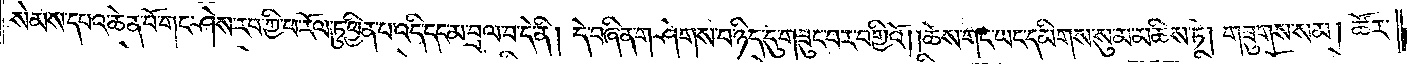སེམས་དཔའ་ཆེན་པོ་གང་ཤེས་རབ་ཀྱི་ཕ་རོལ་ཏུ་ཕྱིན་པ་འདི་དང་མ་བྲལ་བ་དེ་ནི། དེ་བཞིན་གཤེགས་པ་ཉིད་དུ་གཟུང་བར་བགྱིའོ། །ཆོས་གང་ཡང་དམིགས་སུ་མ་མཆིས་ཏེ། གཟུགས་སམ། ཚོར་
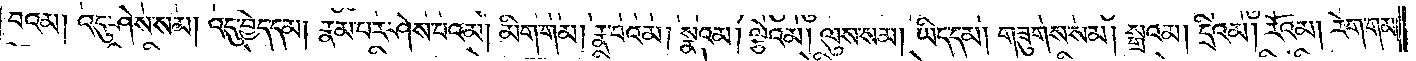བའམ། འདུ་ཤེས་སམ། འདུ་བྱེད་དམ། རྣམ་པར་ཤེས་པའམ། མིག་གམ། རྣ་བའམ། སྣའམ། ལྕེ་འམ། ལུས་སམ། ཡིད་དམ། གཟུགས་སམ། སྒྲའམ། དྲི་འམ། རོ་འམ། རེག་གམ།
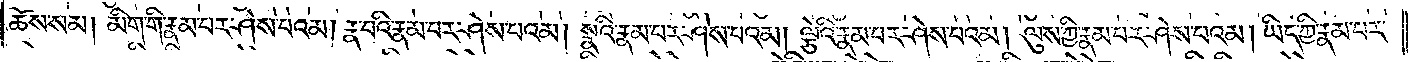ཆོས་སམ། མིག་གི་རྣམ་པར་ཤེས་པའམ། རྣ་བའི་རྣམ་པར་ཤེས་པའམ། སྣའི་རྣམ་པར་ཤེས་པའམ། ལྕེའི་རྣམ་པར་ཤེས་པའམ། ལུས་ཀྱི་རྣམ་པར་ཤེས་པའམ། ཡིད་ཀྱི་རྣམ་པར་
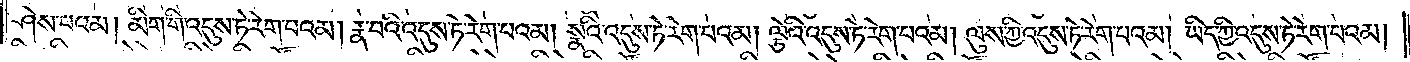ཤེས་པའམ། མིག་གི་འདུས་ཏེ་རེག་པའམ། རྣ་བའི་འདུས་ཏེ་རེག་པའམ། སྣའི་འདུས་ཏེ་རེག་པའམ། ལྕེའི་འདུས་ཏེ་རེག་པའམ། ལུས་ཀྱི་འདུས་ཏེ་རེག་པའམ། ཡིད་ཀྱི་འདུས་ཏེ་རེག་པའམ།
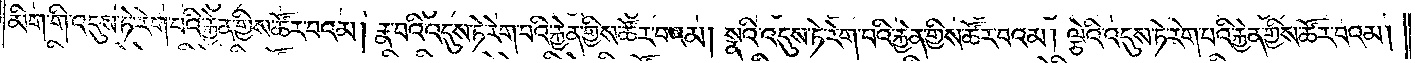མིག་གི་འདུས་ཏེ་རེག་པའི་རྐྱེན་གྱིས་ཚོར་བའམ། རྣ་བའི་འདུས་ཏེ་རེག་པའི་རྐྱེན་གྱིས་ཚོར་བའམ། སྣའི་འདུས་ཏེ་རེག་པའི་རྐྱེན་གྱིས་ཚོར་བའམ། ལྕེའི་འདུས་ཏེ་རེག་པའི་རྐྱེན་གྱིས་ཚོར་བའམ།
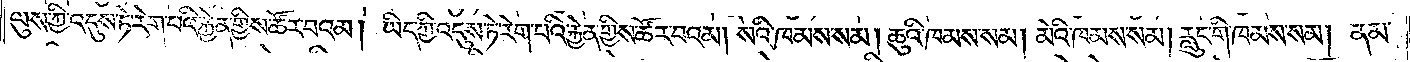ལུས་ཀྱི་འདུས་ཏེ་རེག་པའི་རྐྱེན་གྱིས་ཚོར་བའམ། ཡིད་ཀྱི་འདུས་ཏེ་རེག་པའི་རྐྱེན་གྱིས་ཚོར་བའམ། སའི་ཁམས་སམ། ཆུའི་ཁམས་སམ། མེའི་ཁམས་སམ། རླུང་གི་ཁམས་སམ། ནམ་
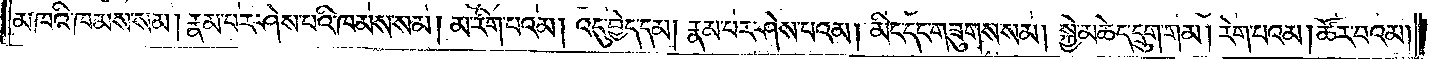མཁའི་ཁམས་སམ། རྣམ་པར་ཤེས་པའི་ཁམས་སམ། མ་རིག་པའམ། འདུ་བྱེད་དམ། རྣམ་པར་ཤེས་པའམ། མིང་དང་གཟུགས་སམ། སྐྱེ་མཆེད་དྲུག་གམ། རེག་པའམ། ཚོར་བའམ།
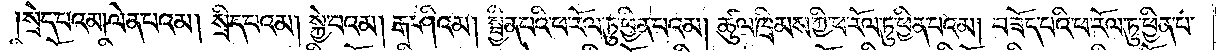སྲེད་པའམ། ལེན་པའམ། སྲིད་པའམ། སྐྱེ་བའམ། རྒ་ཤི་འམ། སྦྱིན་པའི་ཕ་རོལ་ཏུ་ཕྱིན་པའམ། ཚུལ་ཁྲིམས་ཀྱི་ཕ་རོལ་ཏུ་ཕྱིན་པའམ། བཟོད་པའི་ཕ་རོལ་ཏུ་ཕྱིན་པ་
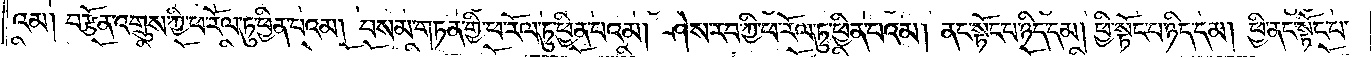འམ། བརྩོན་འགྲུས་ཀྱི་ཕ་རོལ་ཏུ་ཕྱིན་པའམ། བསམ་གཏན་གྱི་ཕ་རོལ་ཏུ་ཕྱིན་པའམ། ཤེས་རབ་ཀྱི་ཕ་རོལ་ཏུ་ཕྱིན་པའམ། ནང་སྟོང་པ་ཉིད་དམ། ཕྱི་སྟོང་པ་ཉིད་དམ། ཕྱི་ནང་སྟོང་པ་
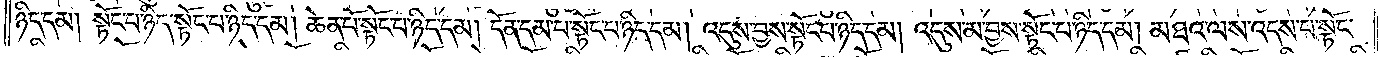ཉིད་དམ། སྟོང་པ་ཉིད་སྟོང་པ་ཉིད་དམ། ཆེན་པོ་སྟོང་པ་ཉིད་དམ། དོན་དམ་པ་སྟོང་པ་ཉིད་དམ། འདུས་བྱས་སྟོང་པ་ཉིད་དམ། འདུས་མ་བྱས་སྟོང་པ་ཉིད་དམ། མཐའ་ལས་འདས་པ་སྟོང་
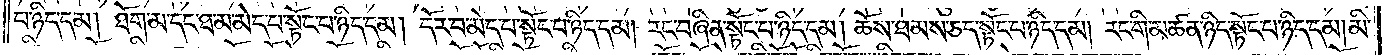པ་ཉིད་དམ། ཐོག་མ་དང་ཐ་མ་མེད་པ་སྟོང་པ་ཉིད་དམ། དོར་བ་མེད་པ་སྟོང་པ་ཉིད་དམ། རང་བཞིན་སྟོང་པ་ཉིད་དམ། ཆོས་ཐམས་ཅད་སྟོང་པ་ཉིད་དམ། རང་གི་མཚན་ཉིད་སྟོང་པ་ཉིད་དམ། མི་
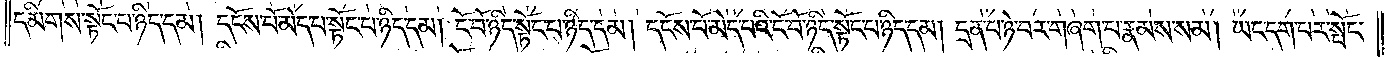དམིགས་པ་སྟོང་པ་ཉིད་དམ། དངོས་པོ་མེད་པ་སྟོང་པ་ཉིད་དམ། ངོ་བོ་ཉིད་སྟོང་པ་ཉིད་དམ། དངོས་པོ་མེད་པའི་ངོ་བོ་ཉིད་སྟོང་པ་ཉིད་དམ། དྲན་པ་ཉེ་བར་གཞག་པ་རྣམས་སམ། ཡང་དག་པར་སྤོང་
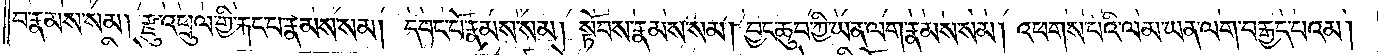བ་རྣམས་སམ། རྫུ་འཕྲུལ་གྱི་རྐང་པ་རྣམས་སམ། དབང་པོ་རྣམས་སམ། སྟོབས་རྣམས་སམ། བྱང་ཆུབ་ཀྱི་ཡན་ལག་རྣམས་སམ། འཕགས་པའི་ལམ་ཡན་ལག་བརྒྱད་པའམ་
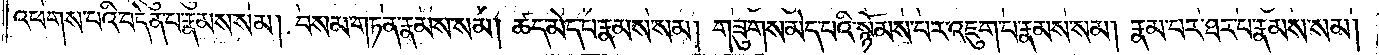འཕགས་པའི་བདེན་པ་རྣམས་སམ། བསམ་གཏན་རྣམས་སམ། ཚད་མེད་པ་རྣམས་སམ། གཟུགས་མེད་པའི་སྙོམས་པར་འཇུག་པ་རྣམས་སམ། རྣམ་པར་ཐར་པ་རྣམས་སམ།
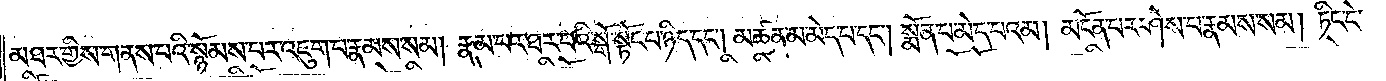མཐར་གྱིས་གནས་པའི་སྙོམས་པར་འཇུག་པ་རྣམས་སམ། རྣམ་པར་ཐར་པའི་སྒོ་སྟོང་པ་ཉིད་དང༌། མཚན་མ་མེད་པ་དང༌། སྨོན་པ་མེད་པའམ། མངོན་པར་ཤེས་པ་རྣམས་སམ། ཏིང་ངེ་
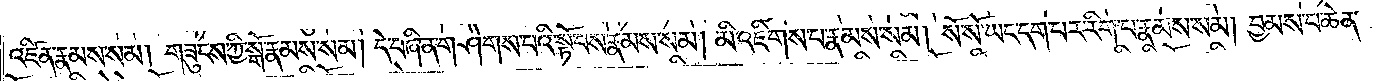འཛིན་རྣམས་སམ། གཟུངས་ཀྱི་སྒོ་རྣམས་སམ། དེ་བཞིན་གཤེགས་པའི་སྟོབས་རྣམས་སམ། མི་འཇིགས་པ་རྣམས་སམ། སོ་སོ་ཡང་དག་པར་རིག་པ་རྣམས་སམ། བྱམས་པ་ཆེན་
